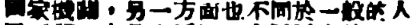國家機關，另一方面也不同於一般的人
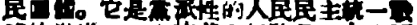民團體。它是黨派性的人民民主統一戰
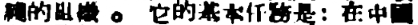綫的組織。 它的基本任務是：在中國
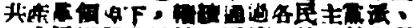共產黨領導下，繼續通過各民主黨派、
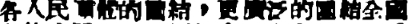各人民團體的團結，更廣泛的團結全國
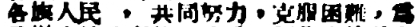各族人民 ，共同努力，克服困難，爲
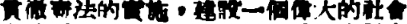貫徹憲法的實施，建設一個偉大的社會
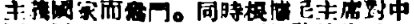主義國家而奮鬥。同時根據毛主席對中
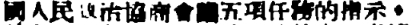國人民政治協商會議五項任務的指示，
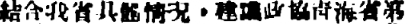結合我省具體情況，建議政協靑海省第
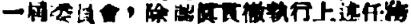一屆委員會，除認眞貫徹執行上述任務
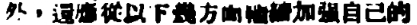外，還應從以下幾方面繼續加強自己的
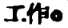工作。
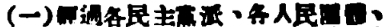（一）經過各民主黨派、各人民團體、
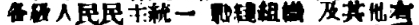各級人民民主統一 戰綫組織 及其他有
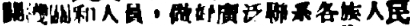關機關和人員，做好廣泛聯系各族人民
